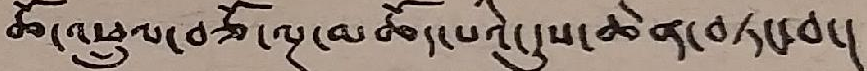ཚོ་འཕྲུལ་བཅོ་ལྔ་མཆོད་པའི་དུས་ཆེན་བཏང་བ་།
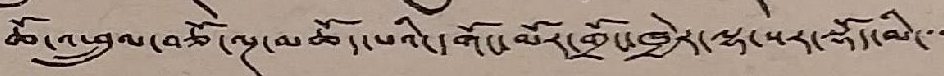ཆོ་འཕྲུལ་བཅོ་ལྔ་མཆོད་པའི་དགོང་མོར་གྲོང་ལྷ་སར་སྡོད་མི་་་
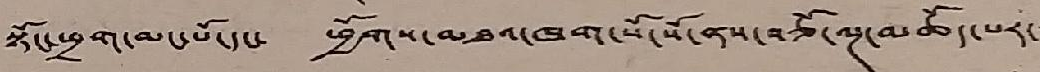སྟོང་ཕྲག་མང་པོ་དང་ ཕྱོགས་མཐའ་ཁག་སོ་སོ་ནས་བཅོ་ལྔ་མཆོད་པར་་
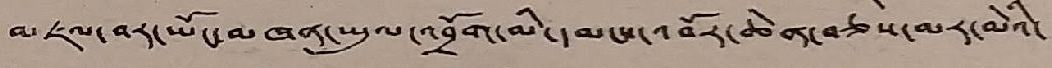མཇལ་བར་ཡོང་མཁན་ཡུལ་འབྲོག་མི་དམངས་འབོར་ཆེན་བཅས་མར་མེའི་
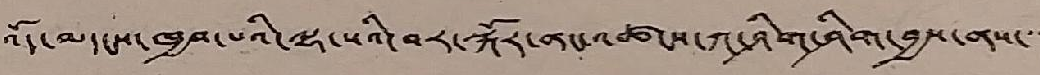འོད་མདངས་ཁྱབ་པའི་ལྷ་སའི་བར་སྐོར་ནང་འཚངས་ཀ་ཤིག་ཤིག་བྱས་ནས་་་
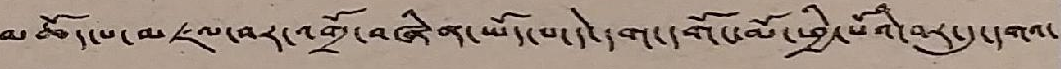མཆོད་པ་མཇལ་བར་འགྲོ་བཞིན་ཡོད་པ་དེ་དག་དགོང་མོ་ཕྱི་པོའི་བར་དུ་དགའ་
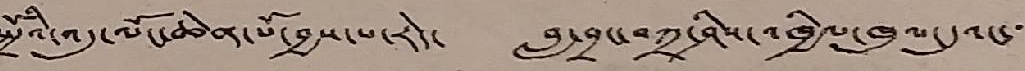སྤྲོའི་འདུ་ལོང་ཆེན་པོ་བྱས་པ་རེད་ བླ་བྲང་བཀྲ་ཤིས་འཁྱིལ་ཁུལ་དུའང་་་
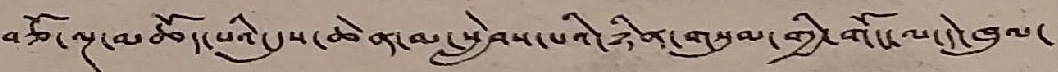བཅོ་ལྔ་མཆོད་པའི་དུས་ཆེན་མ་སླེབས་པའི་ཉིན་གསུམ་གྱི་གོང་ལ་དེ་ཁུལ་
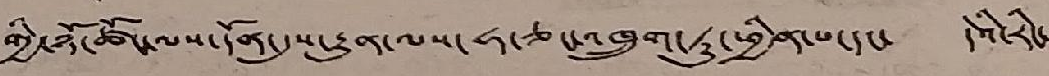གྱི་ཉོ་ཚོང་ལས་དོན་དུས་རྒྱུན་ལས་ཧ་ཅང་འཁྲུག་ཏུ་ཕྱིན་པ་དང་ དེའི་རིང་
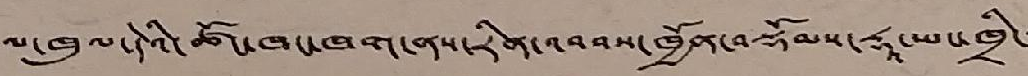ལ་ཁུལ་དེའི་ཚོང་ཁང་ཁག་ནས་རིན་འབབས་ཁྱོན་བསྡོམས་རྡཱ་ཡང་ཁྲི་་་
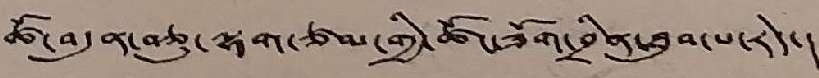ཚོ་བདུན་བཅུ་ལྷག་ཙམ་གྱི་ཚོང་ཟོག་བྲིན་ཐུབ་པ་རེད་།
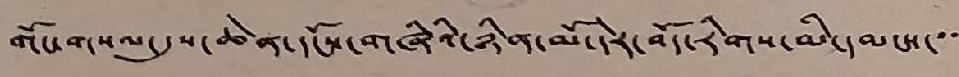གོང་གསལ་དུས་ཆེན་དངོས་གཞིའི་ཉིན་མོ་དེར་བོད་རིགས་མི་དམངས་་་་
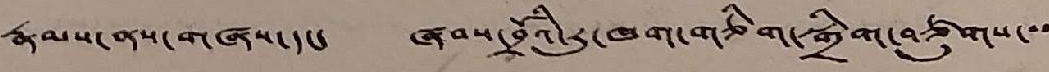རྣམས་ནས་གཞས་དང་ ཞབས་བྲོའི་རུ་ཁག་གཅིག་སྒྲིག་བཙུགས་་་
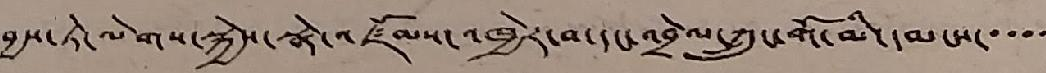བྱས་ཏེ་ལེགས་སྐྱེས་སྣེ་འཛོམས་འཁྱེར་བ་དང་འབྲེལ་ཀྲུང་གོ་མི་དམངས་་་་་
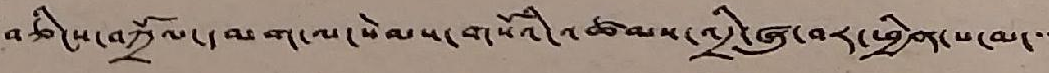བཅིངས་བཀྲོལ་དམག་ལ་སེམས་གསོའི་འཚམས་འདྲི་ཞུ་བར་ཕྱིན་པ་མ་་་
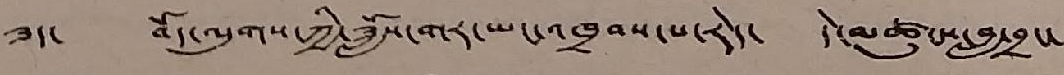ཟད་ བོད་ལུགས་ཀྱི་ཟློས་གར་ཡང་འཁྲབས་པ་རེད་ དེ་མཚུངས་བླ་བྲང་
